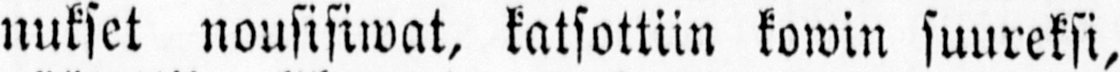nukset nousisiwat, katsottiin kowin suureksi,
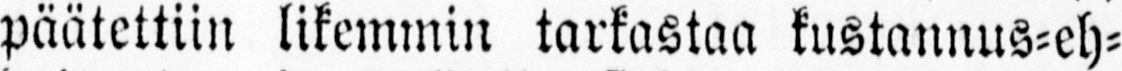päätettiin likemmin tarkastaa kustannus-eh-
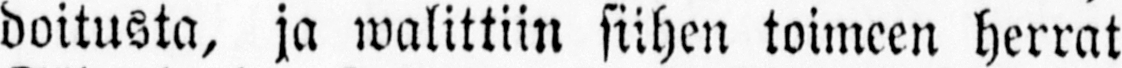doitusta, ja walittiin siihen toimeen herrat
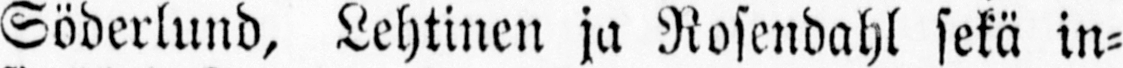Söderlund, Lehtinen ja Rosendahl sekä in-
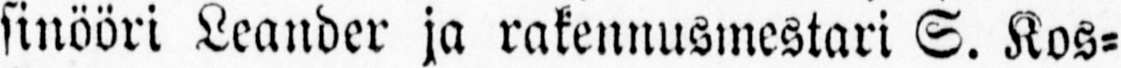sinööri Leander ja rakennusmestari S. Kos-
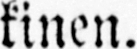kinen.
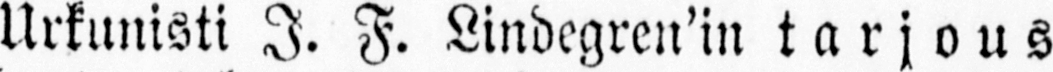Urkunisti I. F. Lindegren'in tarjous
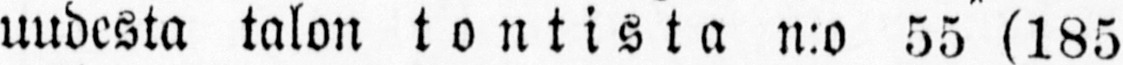uudesta talon tontista n:o 55 (185
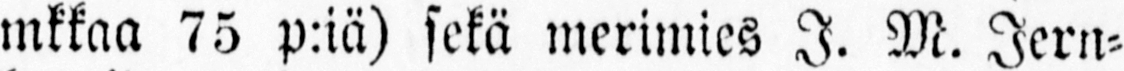mkkaa 75 p:iä) sekä merimies I. M. Jern-
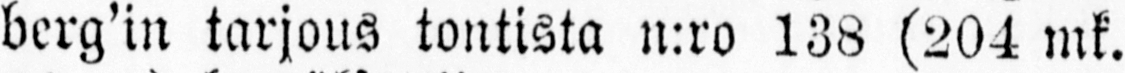berg'in tarjous tontista n:ro 138 (204 mk.
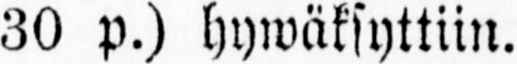30 p.) hywäksyttiin.
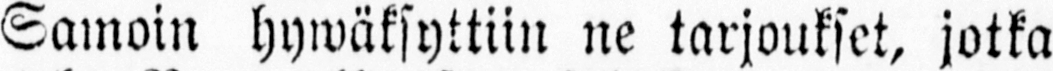Samoin hywäksyttiin ne tarjoukset, jotka
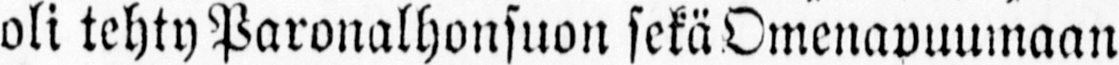oli tehty Paronalhonsuon sekä Omenapuumaan
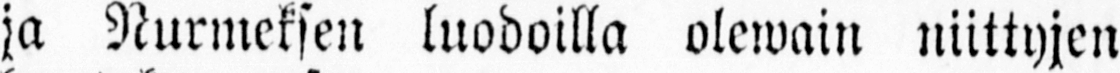ja Nurmeksen luodoilla olewain niittyjen
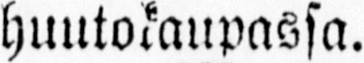huutokaupassa.
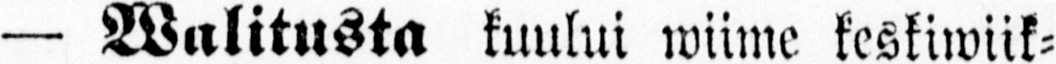— Walitusta kuului wiime keskiwiik-
